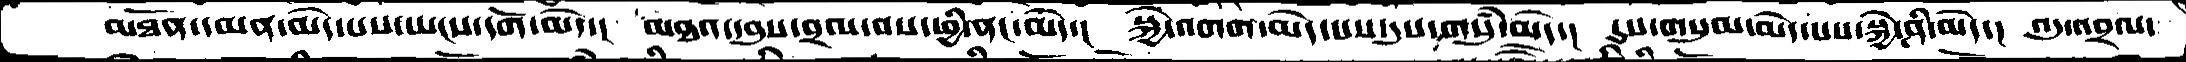མཐོན་དམན་མེད་པས་ཡངས་དོག་མེད་།  མཐའ་དབུས་བྲལ་བས་ཕྱི་ནང་མེད་།  སྐྱེ་འགག་མེད་པས་དུས་གསུཾ་མེད་།  དུས་གསུམ་མེད་པས་སྐྱེ་ཤི་མེད་།  འདུ་བྲལ་
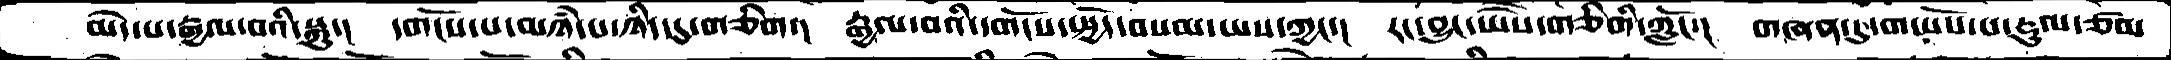མེད་པ་རྒྱལ་བའི་སྐུ་།  དགོངས་པ་མཉཾ་པ་ཉིད་དུ་གཅིག་།  རྒྱལ་བའི་དགོངས་སྤྱོད་བསམ་ཡས་ཀྱང་།  རང་བྱུང་ཡཻས་གཅིགི་ཀློང་།  གཞན་དུ་གཡོས་པ་རྡུལ་ཙམ་
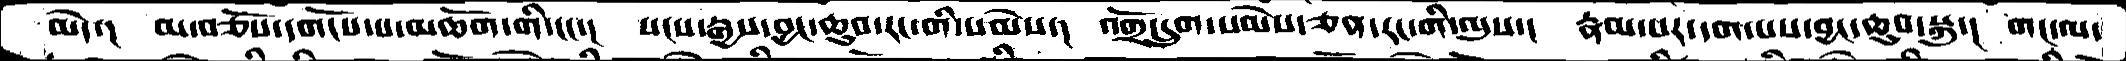མེད་།  མ་བཅོས་དགོངས་པ་མཆོག་གི་ངང་།  སངས་རྒྱས་བྱང་ཆུབ་རང་གི་སེམས་།  འགྲོ་དྲུག་སེམས་ཅན་རང་གི་ལུས་།  རྣམ་པར་དག་པས་བྱང་ཆུབ་སྐུ་།  གང་ལ་
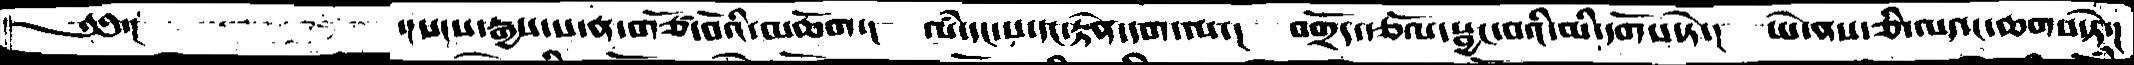༄༅་།        ་།སངས་རྒྱས་ས་ན་གཙོ་བོའི་མཆོག་།  ལཾ་དང་ས་དང་རྟེན་དག་ལ་།  བགྲོད་རྩོལ་སྦྱང་བའི་མི་དགོས་ཏེ་།  ཡེ་ནས་ཅི་ལའང་ཆགས་ཏེ་།
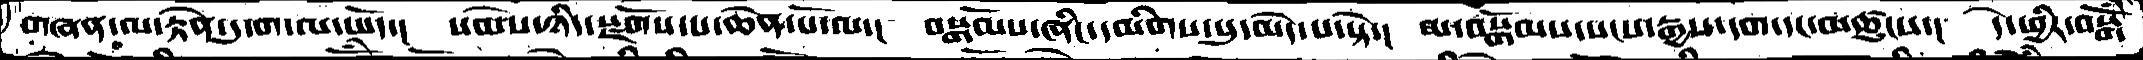གཞན་ལ་རྟེན་དུ་ག་ལ་ཡོད་།  སེམས་ཉིད་སྫོགས་པ་ཆེན་པོ་ལ་།  བསྒོམས་ཞིང་དམིགས་སུ་མེད་པ་སྟེ་།  མ་བསྒོམས་སངས་རྒྱས་དག་དང་མཚུངས་།  དེ་ཕྱིར་བསྒོཾ་
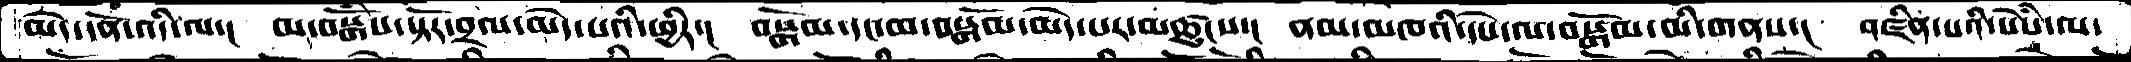མེད་དོན་འདི་ལ་།  མ་བསྒོཾས་སྟོར་བྲལ་མེད་པའི་ཕྱིར་།  བསྒོམ་དང་མ་བསྒོམ་མེད་པར་མཚུངས་།  ནམ་མཁའི་དེས་ལ་བསྒོམ་མི་གནས་།  འཛིན་པའི་སེཾས་ལ་
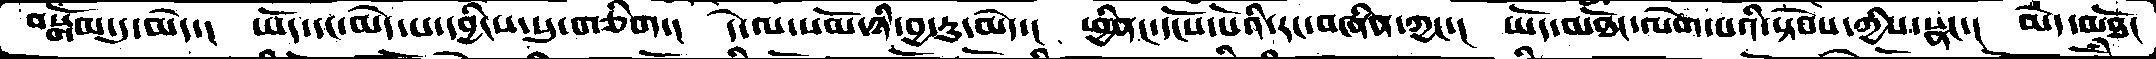བསྒོམ་དུ་མེད་།  ཡོད་དང་མེད་པ་དབྱིངས་སུ་གཅིག་།  དེ་ལ་སོམ་ཉི་བྱ་ཏུ་མེད་།  ཕྱིནང་དངོས་པོའི་རང་བཞིན་ཀྱང་།  ཡོད་མཐོང་ལེགས་པའི་སྟོབས་ཀྱིས་སྣང་།  མེད་མཐོང་
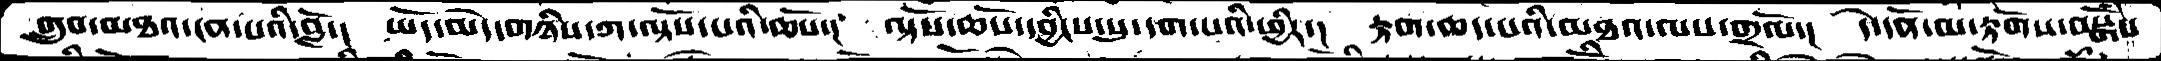གྲུབ་མཐའ་ངན་པའི་བློ་།  ཡོད་མེད་གཉིས་ཀ་ལྟོས་པའི་ཆོས་།  ལྟོས་ཆོས་དབྱིངས་སུ་དག་པའི་ཕྱིར་།  རྟག་ཆད་པའི་མཐའ་ལས་གྲོལ་།  དེ་དོན་མ་རྟོགས་བསྒོཾས་
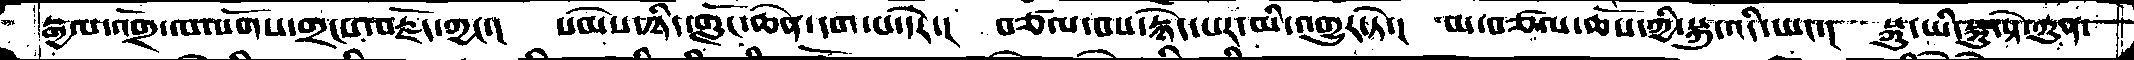རྒྱལ་འགྲོ་ལ་སོགས་གྲངས་བརྗོད་ཀྱང་།  སེམས་ཉིད་གློང་ཆེན་དག་པ་དེར་།  བཙལ་བས་རྙེད་པར་མི་འགྱུར་ཏེ་།  མ་བཙལ་ཆོས་ཀྱི་སྐུ་འདི་ཡང་།  སྐུ་ཡི་སྐུ་སྟེ་ཀུན་
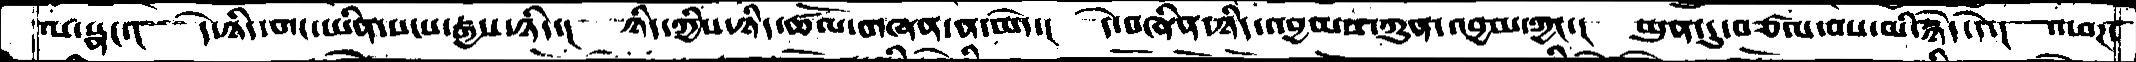ལ་སྣང་།  དེ་ཉིད་གང་ཡིན་སངས་རྒྱས་ཉིད་།  ཉིད་ཀྱིས་ཉིད་ཚོལ་གཞན་ན་མེད་།  དེ་བཞིན་ཉིད་འབྱམས་ཀུན་འབྱམ་ཀྱང་།  ཡུན་དུ་བཙལ་བས་མི་རྙེད་དེ་།  འཕཌ་
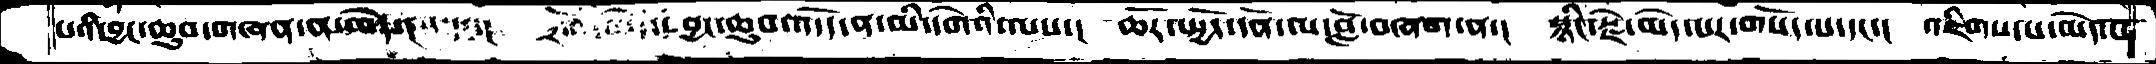པའི་བྱང་ཆུབ་གཞན་ན་མེད་། བྱང་ཆུབ་འདོད་ན་མི་དགེའི་ལས་། ཆོར་སྤྱོད་དོན་ལ་བློ་བཞག་ན་།  སྙིང་རྗེ་མེད་པར་གསོད་པ་དང་།   འཇིགས་པ་མེད་པ
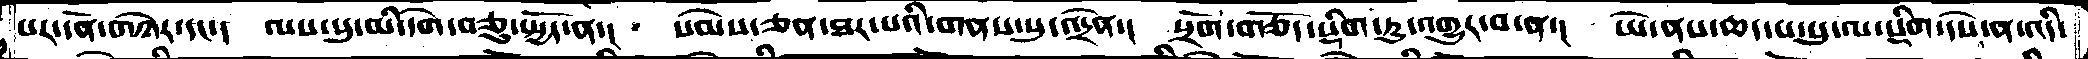པར་དོན་གཉེར་དང་།  ལས་སུ་མི་དགེ་བཅུ་སྤྱོད་ན་།  སེམས་ཅན་ཐར་པའི་གནས་སུ་འདྲེན་།  སྲོག་གཅོད་སྡིག་ཏུ་འགྱུར་བ་ན་།  ཡེ་ནས་ཆད་པ་སུ་ལ་སྡིག་དེས་ན་འདི་
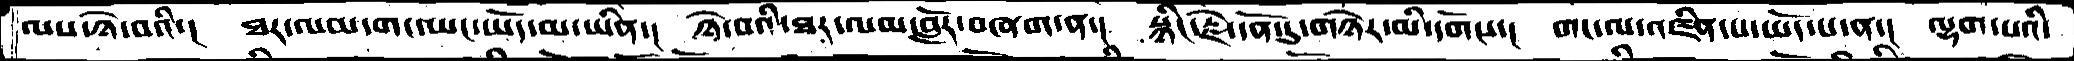ལས་ཉེ་བའི་།  ཐར་ལམ་གང་ཡང་ཡོད་མ་ཡིན་།  ཉེ་བའི་ཐར་ལམ་བློར་བཞག་ན་།  སྙིང་རྗེ་དོན་དུ་གཉེར་མི་དགོས་།  གང་ལ་འཛིན་པ་ཡོད་པ་ན་།  ལྷག་པའི་
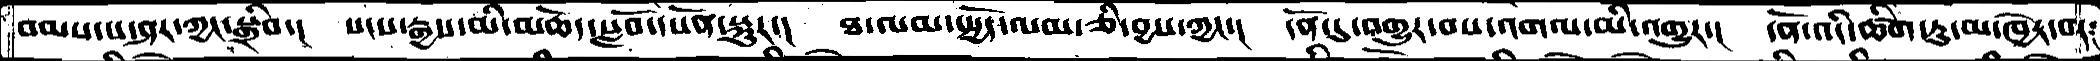བམས་པ་ཤར་ཀྱང་སྒྲིབ་།  སངས་རྒྱས་མི་མཆོད་སློབ་དཔོན་སྐུར་།  ཐ་ལམ་སྤྱོད་ལམ་ཅི་བྱས་ཀྱང་།  དོན་དུ་འགྱུར་བས་འགལ་མི་འགྱུར་།  དོན་འདི་ཚིག་ཏུ་མ་ཁྱེར་བར་
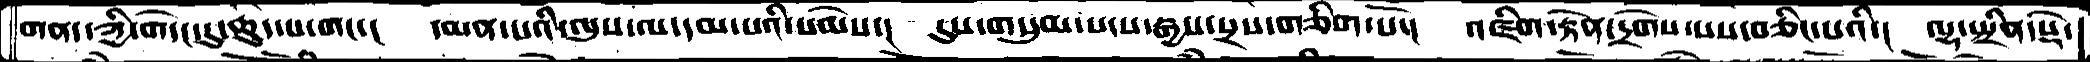གནད་ཀྱི་གདེང་དུ་ཆུད་པ་གང་།  དམན་པའི་ལུས་ལ་དམ་པའི་སེམས་།  དུས་གསུམ་སངས་རྒྱས་སྲས་གཅིག་པོ་།  འཇིག་རྟེན་དྲེགས་པས་བཅིང་པའི་།  ལྷ་སྤྲིན་སྡེ་
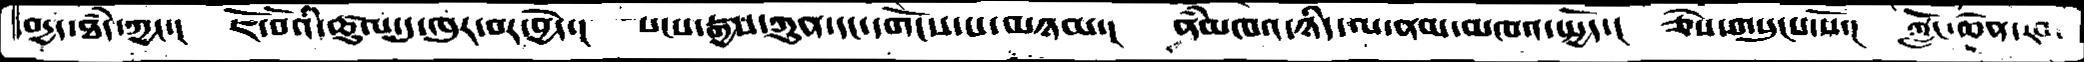བདྱད་ཐཾད་ཀྱང་།  ཇོ་བོའི་ཚུལ་དུ་ཁུར་བར་བྱེད་།  སངས་རྒྱས་ཀུན་དང་དགོངས་པ་མཉམ་།  ནཾམཁའ་ཉིད་ལ་ནམ་མཁའ་སྤྱོད་།  ཅེས་གསུངས་སོ་།  ཀློང་ཆེན་རབ་
